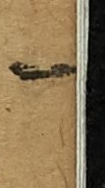一
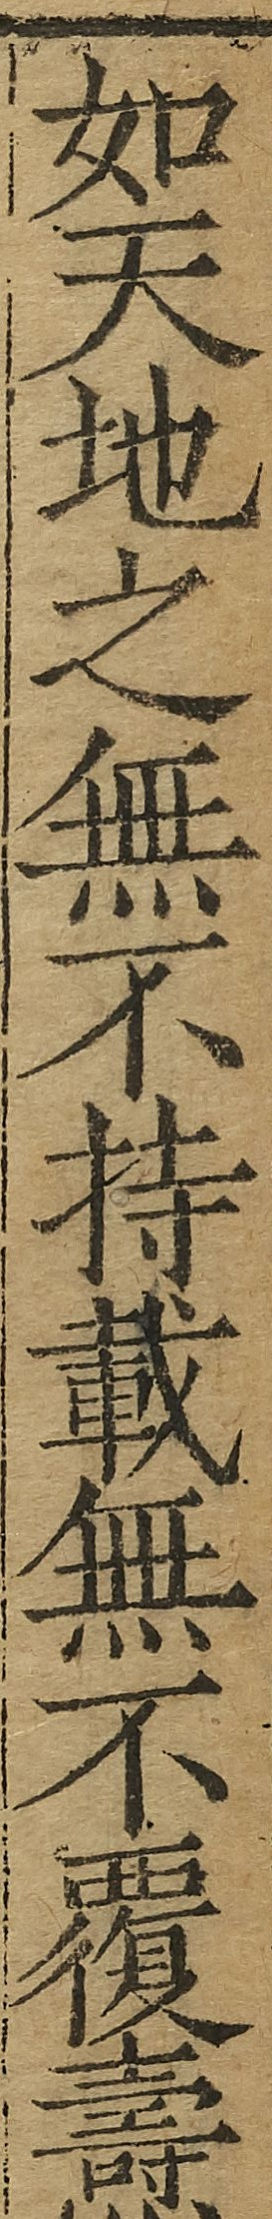如天地之無不持載無不覆燾
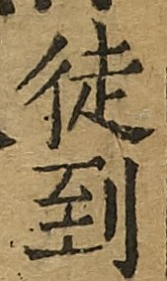徒到
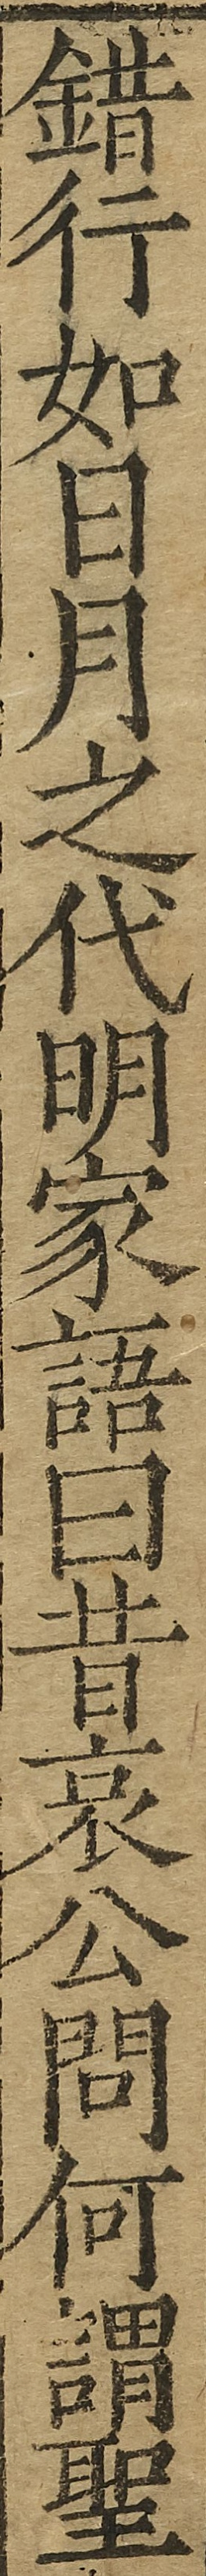錯行如日月之代明家語曰昔哀公問何謂聖
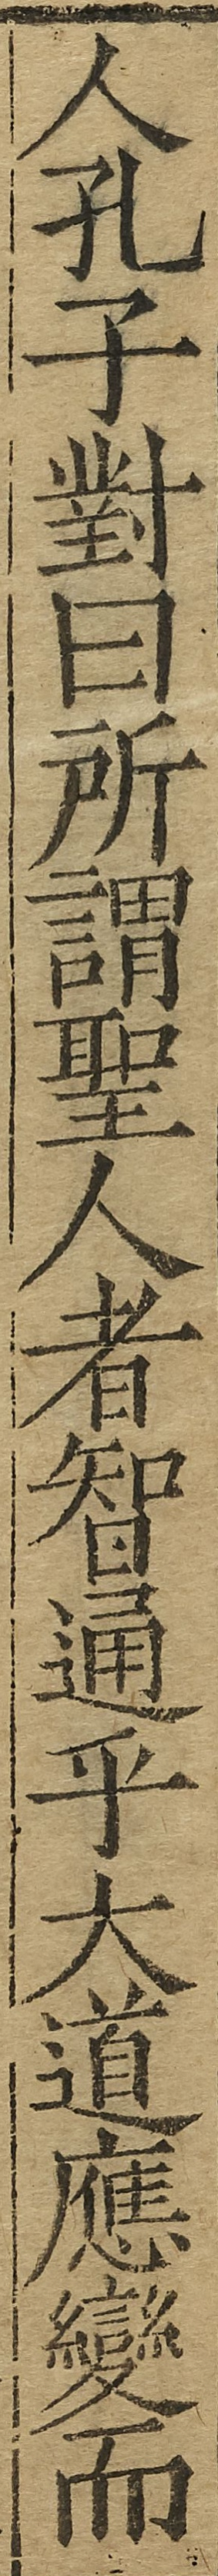人孔子對曰所謂聖人者智通乎大道應變而
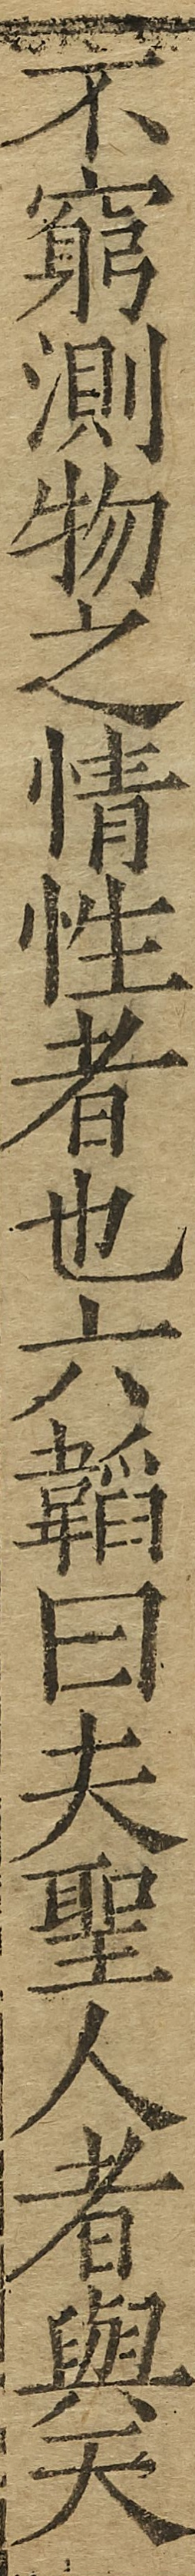不窮測物之情性者也六韜曰夫聖人者與天
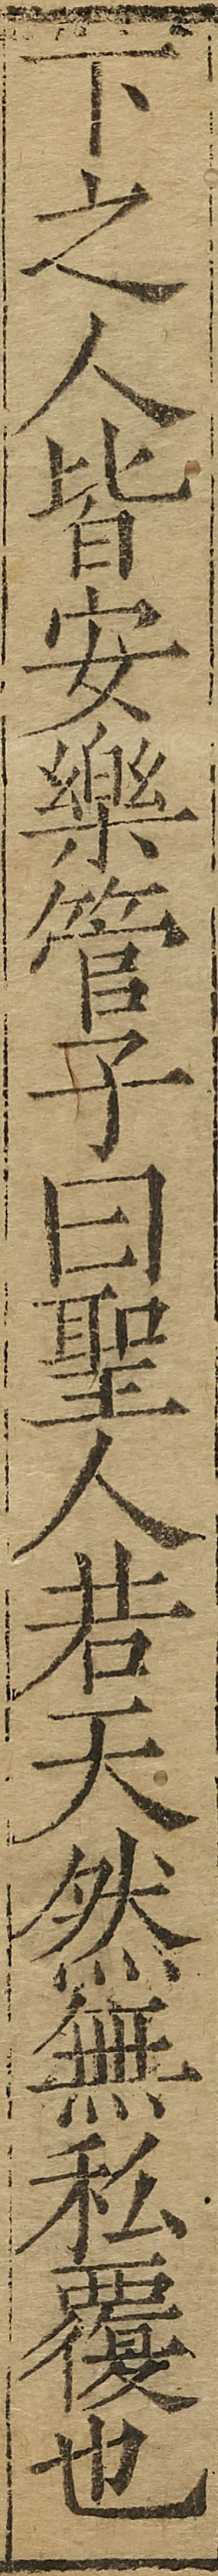下之人皆安樂管子曰聖人若天然無私覆也
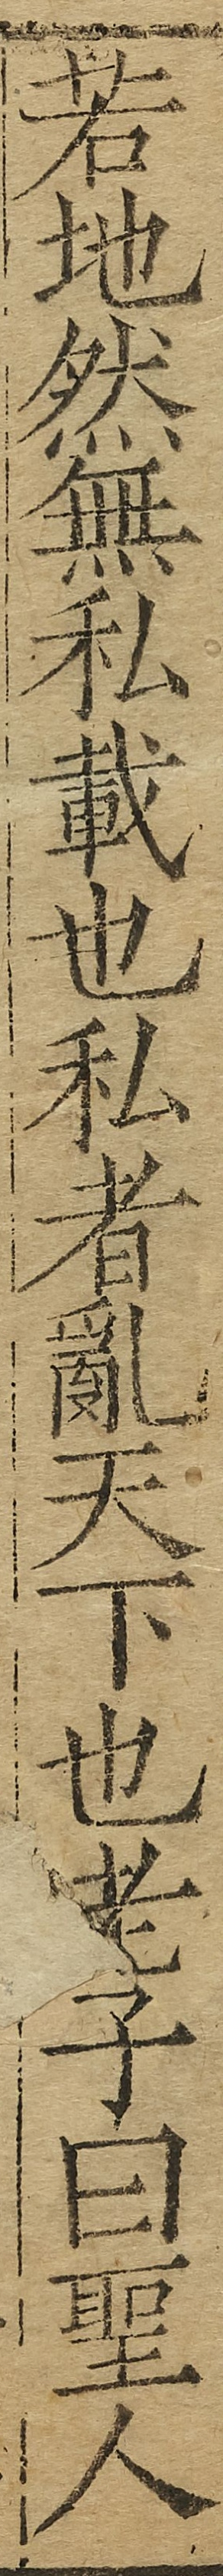若地然無私載也私者亂天下也老子曰聖人
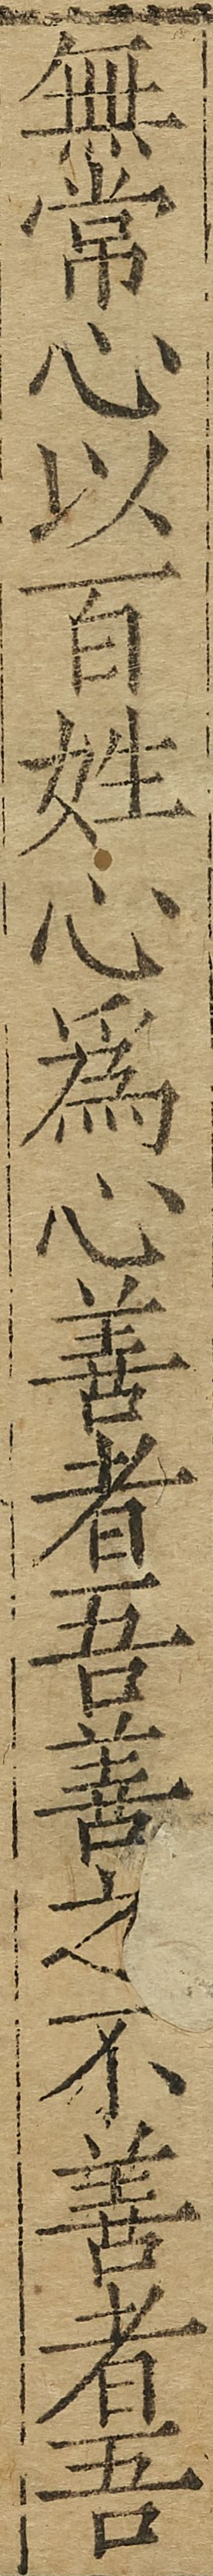無常心以百姓心為心善者吾善之不善者吾
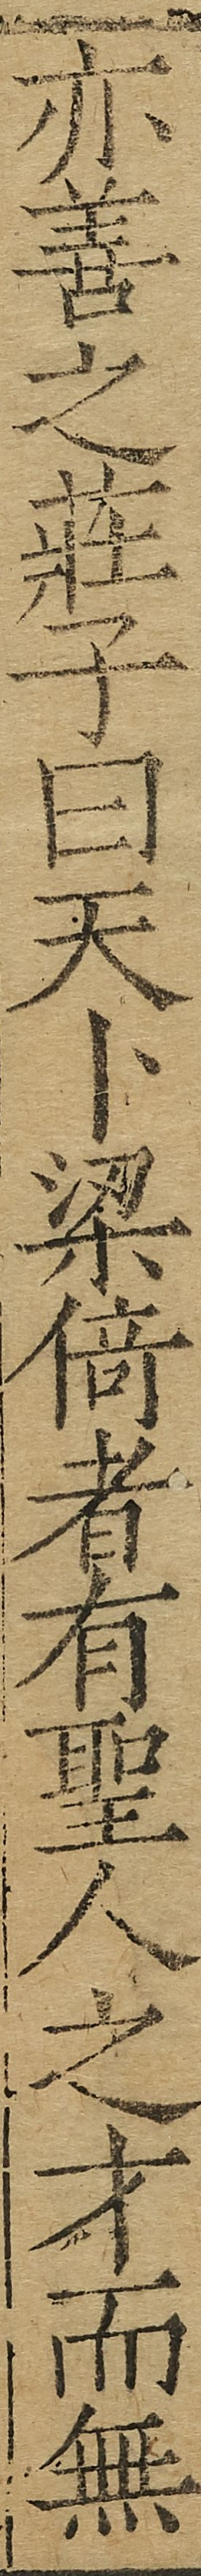亦善之莊子曰夫卜梁倚者有聖人之才而無
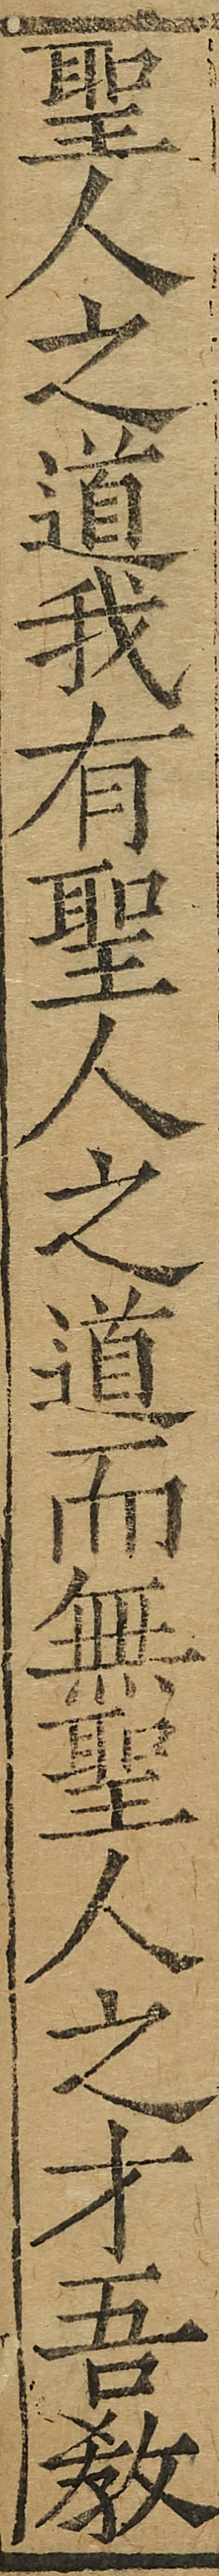聖人之道我有聖人之道而無聖人之才吾教
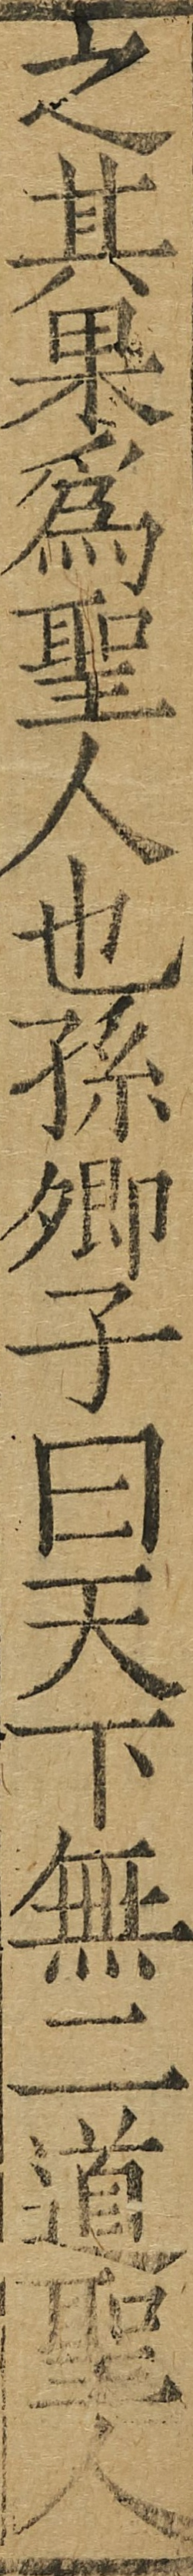之其果為聖人也孫卿子曰天下無二道聖人
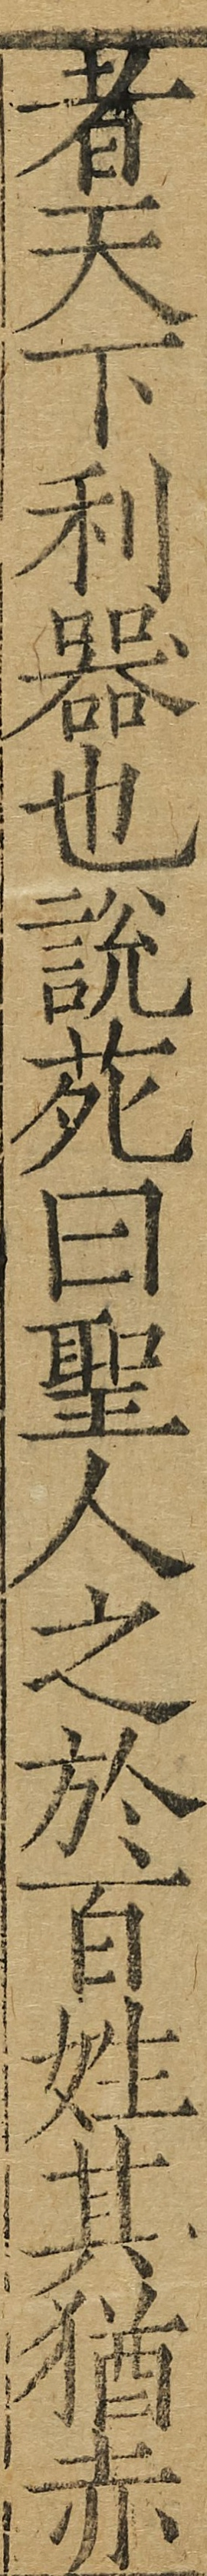者天下利器也說苑曰聖人之於百姓其猶赤
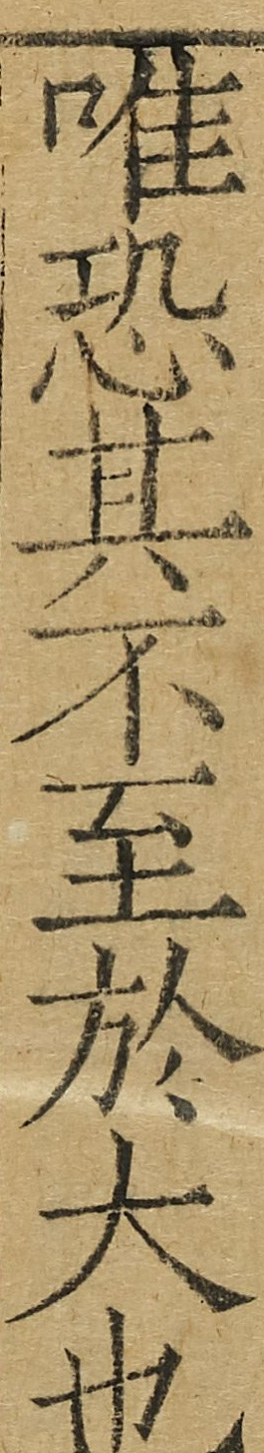唯恐其不至於大也
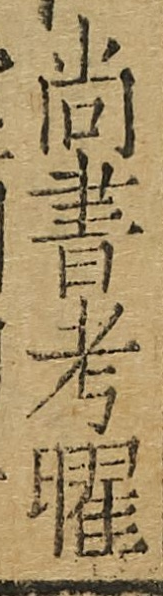尚書考曜
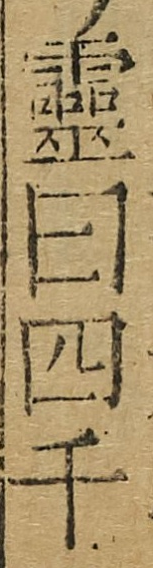靈曰四千
